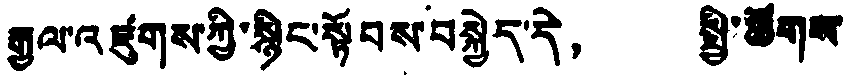རྒྱལ་འཛུགས་ཀྱི་སྙིང་སྟོབས་བསྐྱེད་དེ， སྤྱི་ཚོགས་
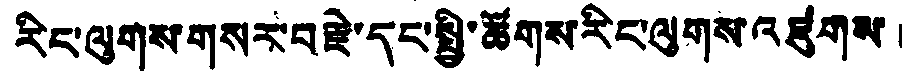རིང་ལུགས་གསར་བརྗེ་དང་སྤྱི་ཚོགས་རིང་ལུགས་འཛུགས
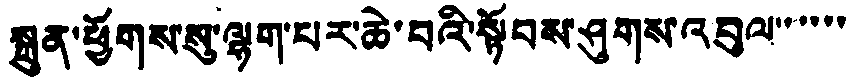སྐྲུན་ཕྱོགས་སུ་ལྷག་པར་ཆེ་བའི་སྟོབས་ཤུགས་འབུལ་་་་་་
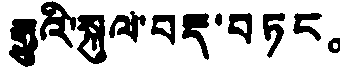རྒྱུའི་སྐུལ་བརྡ་བཏང。
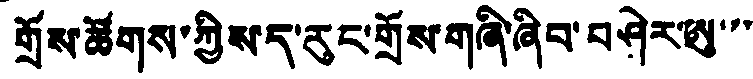གྲོས་ཚོགས་ཀྱིས་ད་རུང་གྲོས་གཞི་ཞིབ་བཤེར་ཨུ་་་་
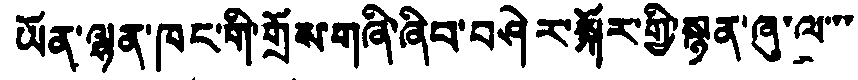ཡོན་ལྷན་ཁང་གི་གྲོས་གཞི་ཞིབ་བཤེར་སྐོར་གྱི་སྙན་ཞུ་ལ་་་
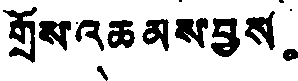གྲོས་འཆམས་བྱས。
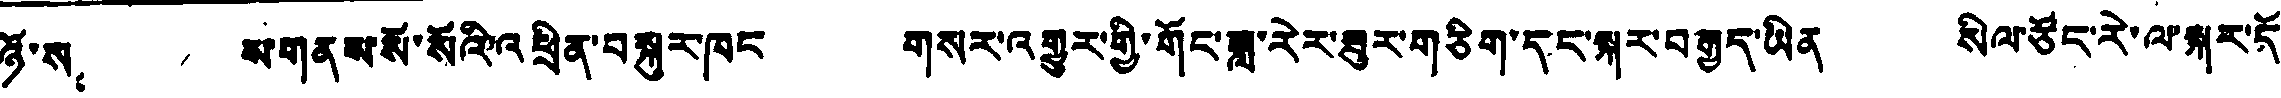ཉོ་ས ས་གནས་སོ་སོའི་འཕྲིན་བསྐུར་ཁང གསར་འགྱུར་གྱི་གོང་ཟླ་རེར་ཟུར་གཅིག་དང་སྐར་བརྒྱད་ཡིན སིལ་ཙོང་རེ་ལ་སྐར་དོ་
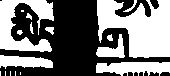མིད ག
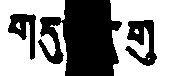གདུ གུ
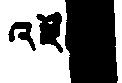འཛོ
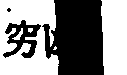穷
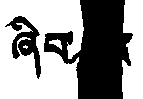ཞིབ
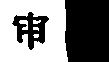审
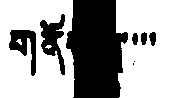གནོ་་་
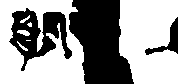ཕྱག
